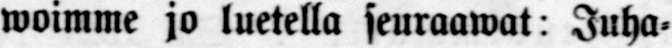woimme jo luetella seuraawat: Juha-
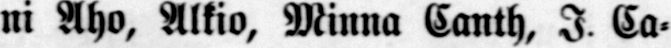ni Aho, Alkio, Minna Canth, I. Ca-
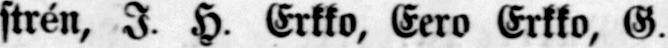strén, I. H. Erkko, Eero Erkko, G.
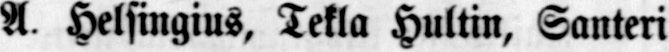A Helsingius, Tekla Hultin, Santeri
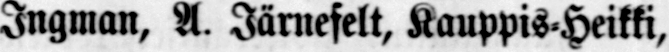Ingman, A. Järnfelt, Kauppis-Heikki,
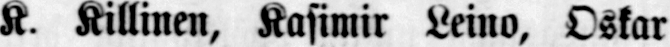K. Killinen, Kasimir Leino, Oskar
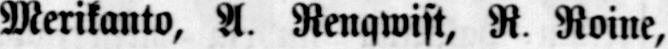Merikanto, A. Renqwist, R. Roine,
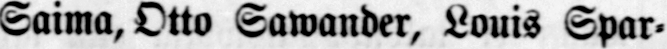Saima, Otto Sawander, Louis Spar-
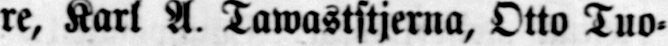re, Karl A. Tawaststjerna, Otto Tuo-
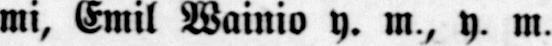mi, Emil Wainio y. m., y. m.
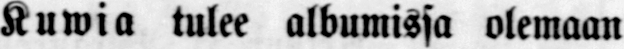Kuwia tulee albumissa olemaan
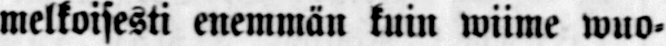melkoisesti enemmän kuin wiime wuo-
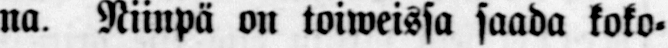na. Niinpä on toiweissa saada koko-
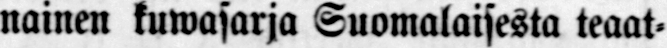nainen kuwasarja Suomalaisesta teaat-
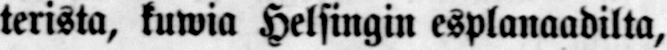teristä, kuwia Helsingin esplanaadilta,
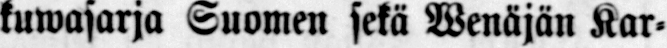kuwasarja Suomen sekä Wenäjän Kar-
